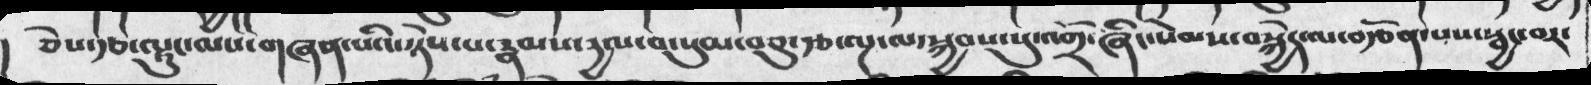། ཅེས་རྩ་ལྟུང་ལས་གཞན་པའི་ཉེས་པ་རྣམས་དྱལ་བ་སུམ་བཅུ་རྩ་ལྔ་ལ་སྐྱབས་སུ་འགྲོ་ཞིང་སེམས་བསྐྱེད་ལ་བརྩོན་པས་སྦྱང་བར་
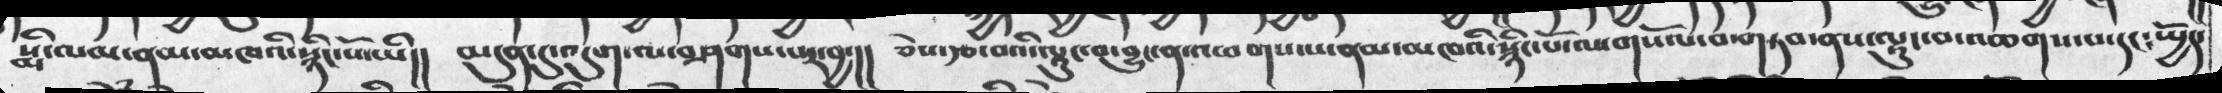སྨི་ལམ་ནམ་མཁའི་སྙིང་པོ་ཡི།། མདུན་དུ་འདུག་ལ་བཤགས་པར་བྱ་།། ཅེས་རྩ་བའི་ལྟུང་བ་བྱུང་ན་འཕགས་པ་ནམ་མཁའི་སྙིང་པོ་ལ་གསོལ་བ་གཏབ་ནས་ལྟུང་བ་འཆགས་པ་དང༴སྤྱོད་
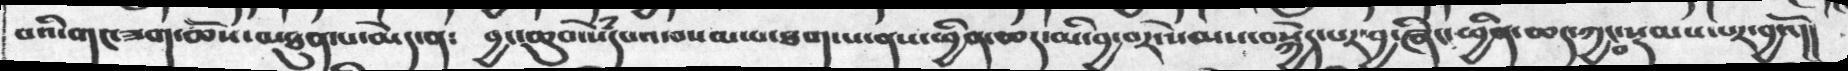བའི་གང་ཟག་ཆོས་མཐུན་པ་མེད་ན༴     བྱང་ཆུབ་སེཾདཔའ་བསམ་པ་ཐག་པ་ནས་ཕྱིན་ཆད་མི་བྱ་བར་སེམས་བསྐྱེད་པར་བྱ་ཞིང་ཕྱིན་ཆད་ཀྱང་བསྡམས་པར་བྱའོ།།
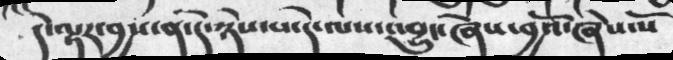དེ་ལྟར་བྱས་ན་དེ་ཉེས་པ་དེ་ལས་འབྱུང་ཞེས་བྱའོ་ཞེས་སོ
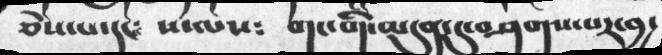ཅེས་པ་དང༴ ས་ལས༴ གང་གི་མདུན་དུ་བཤགས་པར་བྱ་
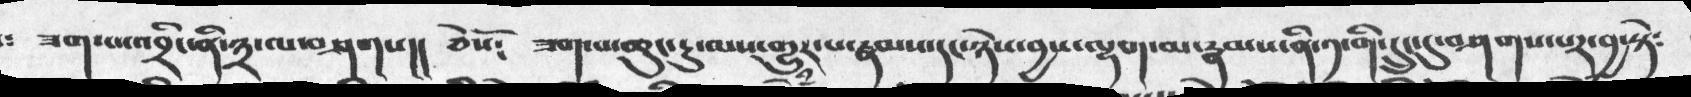ཟག་པ་འབྲི་ནི་༣་ལ་བཤགས།། ཅེསོ༴ ཟག་པ་ཆུང་ངུ་མས་གྱུར་པ་རྣམས་དང་ཉེས་བྱས་ལྷག་མ་རྣམས་ནི་༡་གི་དྲུང་དུ་བཤགས་པར་བྱ་སྟེ༴
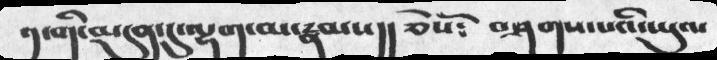༡་གི་མདུན་དུ་ལྷག་མ་རྣམས།། ཅེསོ༴ བཤགས་པའི་ཡུལ
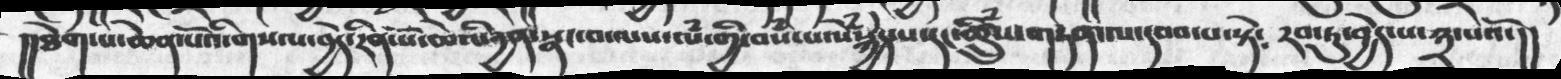།།ཐེག་པ་ཆེན་པོའི་གསལ་བྱེད་རིན་པོ་ཆེའི་དྱན་སྣང་བ་ལས་ལཾ་གྱི་བསཾ་པ་སེཾསྐྱེད་པ་དང་ཚྲིུཾས་གཏན་ལ་དབབ་པ་སྟེ༴  རབ་ཏུ་བྱེད་པ་༣་པའོ་།།
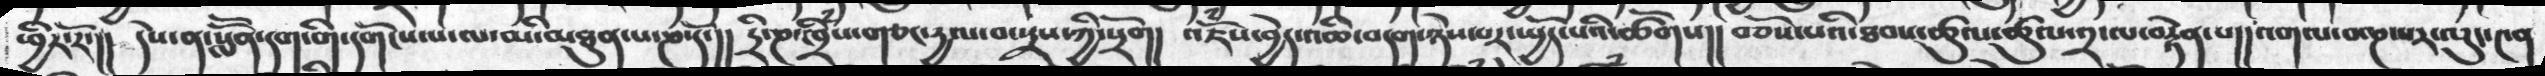ཕྱིར་རོ་།། དེས་ན་སློོན་དག་གི་དགོངས་པ་ལ་མི་མཐུན་པ་ཎ་དོ་།། དྲི་ཎ་ཁྲིཾས་གཙང་དྱལ་བ་སྲས་ཀྱི་སྲོག། འཇོཾས་བྱེད་འཆི་བདག་ཉེས་པར་སྤྱོད་པའི་ཚོགས།། བཅོས་པའི་ཐབས་ཚུལ་ཚུལ་༢་ལ་བརྟེན་པ།། འགལ་བ་ཎ་པར་ལུང་༤ན
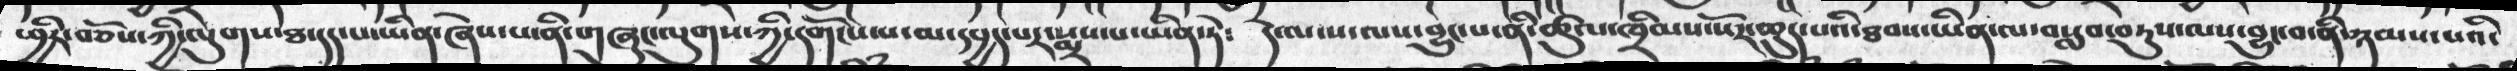ཕྱིར་བཅོས་ཀྱི་ལུགས་ཐ་དད་པ་ཡིན་ཞེས་པ་ནི་གཞུང་ལུགས་ཀྱི་དགོངས་པ་མ་དཔྱད་པར་སྨྲས་པ་ཡིན་ཏེ༴ དེ་ལ་ས་ལས་བྱུང་པ་ནི་ཚུལ་ཁྲིམས་སོར་ཆུད་པའི་ཐབས་ཡིན་ལ་བསླབ་བཏུས་ལས་བྱུང་བ་ནི་ཉམས་པའི་
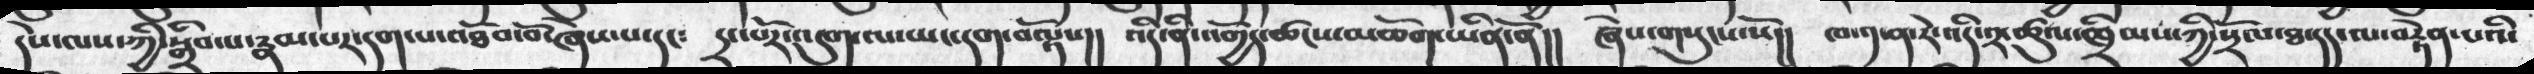དེས་ལས་ཀྱི་སྒྲིབ་པ་རྣམ་པར་དག་པ་འཐོབ་བོ་ཞེས་པ་དང༴ དྲང་པོར་འདུག་ལ་ཡང་དག་བལྟོས།། འདི་ནི་འགྱོད་ཚངས་མཆོག་ཡིན་ནོ།། ཞེས་གསུངས་སོ།། ཁ་༡་ན་རེ་འདི་༢་ཚུལ་ཁྲིམས་ཀྱི་སྲོལ་ཐ་དད་ལ་བརྟེན་པའི་
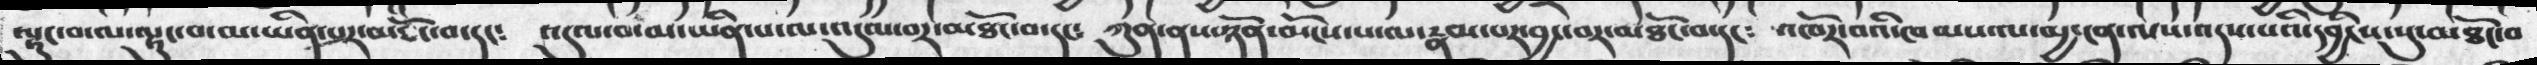ལྟུང་བ་ལ་ལྟུང་བ་མ་ཡིན་པར་མཐོང་བ་དང༴ འདུལ་བ་མ་ཡིན་པ་ལ་འདུལ་བར་མཐོང་བ་དང༴ ཀུན་ནས་ཉོན་མོངས་པ་ལ་རྣམ་པར་བྱང་བར་མཐོང་བ་དང༴ འཁོར་བའི་ཁམས་ལ་མྱ་ངན་ལས་འདས་པའི་དབྱིངས་སུ་མཐོང་བ
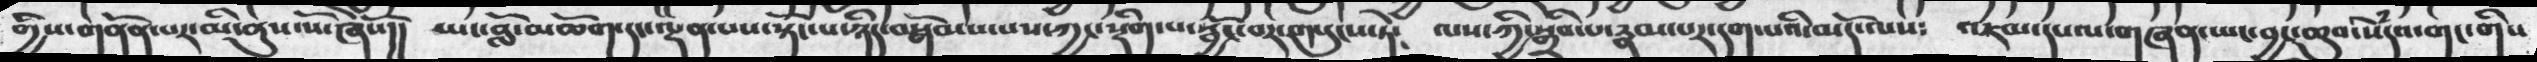གྱིས་གནོན་པར་མི་ནུས་སོ་ཞེསོ།། ཡང་བློ་མཆོག་དང་ལྡན་པས་སྟོང་པ་ཉིད་བསྒོམས་པས་ཀྱང་སྡིག་པ་སྦྱོང་བར་གསུངས་ཏེ༴ ལས་ཀྱི་སྒྲིབ་པ་རྣམ་པར་དག་པའི་མདོ་ལས༴ འཇམ་དཔལ་གཞན་ཡང་བྱང་ཆུབ་སེཾདའ་གང་གིས
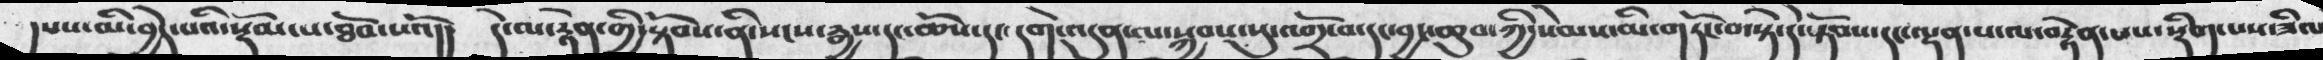དཔས་མི་བྱེད་པའི་སྡོམ་པ་ཐོབ་པའོ།།  དེ་ལ་རྟེན་གྱི་སྟོབས་ནི་སངས་རྒྱས་དང་ཆོས་དང་དགེ་འདུན་ལ་སྐྱབས་སུ་འགྲོ་བ་དང་བྱང་ཆུབ་ཀྱི་སེམས་མི་གཏོང་བ་སྟེ་དེ་སྟོབས་དང་ལྡན་པ་ལ་བརྟེན་པས་སྡིག་པས་ཟིལ
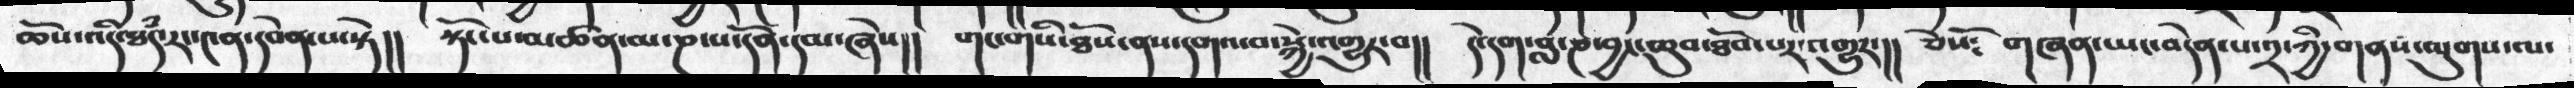ཆོས་འདི་ཐཾད་རང་༤ན་དབེན་པ་སྟེ།། སྟོང་པ་མཚན་མ་ཎ་པ་དོན་དམ་ཞེས།། གང་གིས་ཐོས་ནས་དགའ་བ་སྐྱེ་འགྱུར་བ།། དེ་དག་བླ་ཎ་བྱང་ཆུབ་ཐོབ་པར་འགྱུར་།། ཅེསོ༴ གཞན་ཡང་དབེན་པ་༢་ཀྱི་གནས་ལུགས་ལ་
